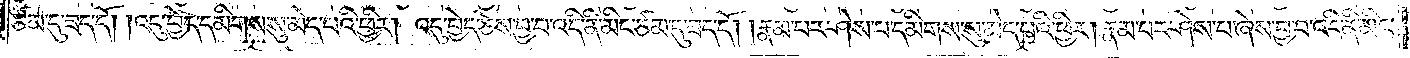ཙམ་དུ་ཟད་དོ། །འདུ་བྱེད་དམིགས་སུ་མེད་པའི་ཕྱིར། འདུ་བྱེད་ཅེས་བྱ་བ་འདི་ནི་མིང་ཙམ་དུ་ཟད་དོ། །རྣམ་པར་ཤེས་པ་དམིགས་སུ་མེད་པའི་ཕྱིར། རྣམ་པར་ཤེས་པ་ཞེས་བྱ་བ་འདི་ནི་མིང་
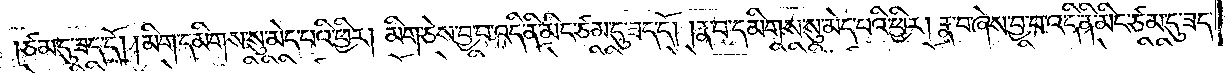ཙམ་དུ་ཟད་དོ། །མིག་དམིགས་སུ་མེད་པའི་ཕྱིར། མིག་ཅེས་བྱ་བ་འདི་ནི་མིང་ཙམ་དུ་ཟད་དོ། །རྣ་བ་དམིགས་སུ་མེད་པའི་ཕྱིར། རྣ་བ་ཞེས་བྱ་བ་འདི་ནི་མིང་ཙམ་དུ་ཟད་
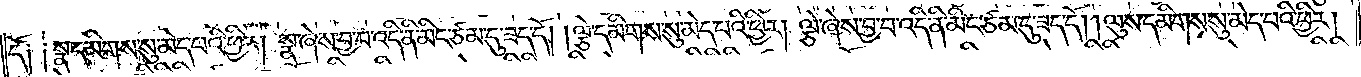དོ༑ ༑སྣ་དམིགས་སུ་མེད་པའི་ཕྱིར། སྣ་ཞེས་བྱ་བ་འདི་ནི་མིང་ཙམ་དུ་ཟད་དོ། །ལྕེ་དམིགས་སུ་མེད་པའི་ཕྱིར། ལྕེ་ཞེས་བྱ་བ་འདི་ནི་མིང་ཙམ་དུ་ཟད་དོ། །ལུས་དམིགས་སུ་མེད་པའི་ཕྱིར།
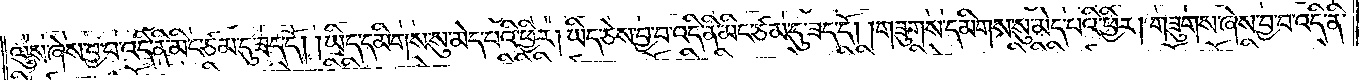ལུས་ཞེས་བྱ་བ་འདི་ནི་མིང་ཙམ་དུ་ཟད་དོ། །ཡིད་དམིགས་སུ་མེད་པའི་ཕྱིར། ཡིད་ཅེས་བྱ་བ་འདི་ནི་མིང་ཙམ་དུ་ཟད་དོ། །གཟུགས་དམིགས་སུ་མེད་པའི་ཕྱིར། གཟུགས་ཞེས་བྱ་བ་འདི་ནི་
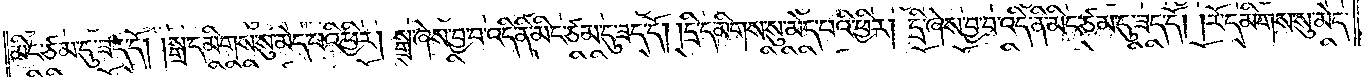མིང་ཙམ་དུ་ཟད་དོ། །སྒྲ་དམིགས་སུ་མེད་པའི་ཕྱིར། སྒྲ་ཞེས་བྱ་བ་འདི་ནི་མིང་ཙམ་དུ་ཟད་དོ། །དྲི་དམིགས་སུ་མེད་པའི་ཕྱིར། དྲི་ཞེས་བྱ་བ་འདི་ནི་མིང་ཙམ་དུ་ཟད་དོ། །རོ་དམིགས་སུ་མེད་
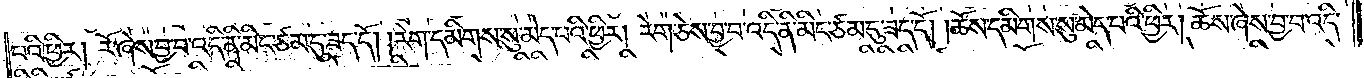པའི་ཕྱིར། རོ་ཞེས་བྱ་བ་འདི་ནི་མིང་ཙམ་དུ་ཟད་དོ། །རེག་དམིགས་སུ་མེད་པའི་ཕྱིར། རེག་ཅེས་བྱ་བ་འདི་ནི་མིང་ཙམ་དུ་ཟད་དོ། །ཆོས་དམིགས་སུ་མེད་པའི་ཕྱིར། ཆོས་ཞེས་བྱ་བ་འདི་
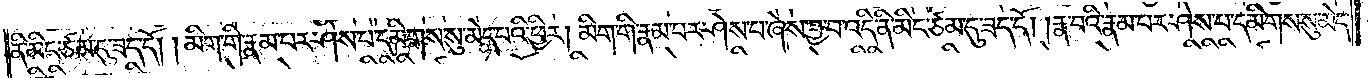ནི་མིང་ཙམ་དུ་ཟད་དོ། །མིག་གི་རྣམ་པར་ཤེས་པ་དམིགས་སུ་མེད་པའི་ཕྱིར། མིག་གི་རྣམ་པར་ཤེས་པ་ཞེས་བྱ་བ་འདི་ནི་མིང་ཙམ་དུ་ཟད་དོ། །རྣ་བའི་རྣམ་པར་ཤེས་པ་དམིགས་སུ་མེད་
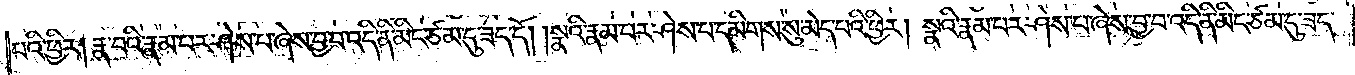པའི་ཕྱིར། རྣ་བའི་རྣམ་པར་ཤེས་པ་ཞེས་བྱ་བ་འདི་ནི་མིང་ཙམ་དུ་ཟད་དོ། །སྣའི་རྣམ་པར་ཤེས་པ་དམིགས་སུ་མེད་པའི་ཕྱིར། སྣའི་རྣམ་པར་ཤེས་པ་ཞེས་བྱ་བ་འདི་ནི་མིང་ཙམ་དུ་ཟད་
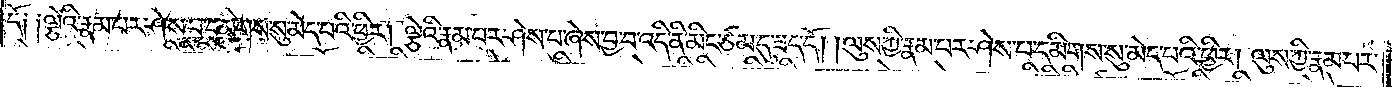དོ༑ ༑ལྕེའི་རྣམ་པར་ཤེས་པ་དམིགས་སུ་མེད་པའི་ཕྱིར། ལྕེའི་རྣམ་པར་ཤེས་པ་ཞེས་བྱ་བ་འདི་ནི་མིང་ཙམ་དུ་ཟད་དོ། །ལུས་ཀྱི་རྣམ་པར་ཤེས་པ་དམིགས་སུ་མེད་པའི་ཕྱིར། ལུས་ཀྱི་རྣམ་པར་
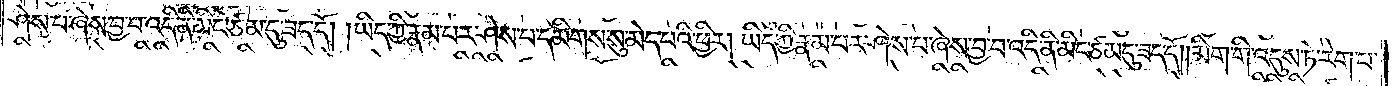ཤེས་པ་ཞེས་བྱ་བ་འདི་ནི་མིང་ཙམ་དུ་ཟད་དོ། །ཡིད་ཀྱི་རྣམ་པར་ཤེས་པ་དམིགས་སུ་མེད་པའི་ཕྱིར། ཡིད་ཀྱི་རྣམ་པར་ཤེས་པ་ཞེས་བྱ་བ་འདི་ནི་མིང་ཙམ་དུ་ཟད་དོ། །མིག་གི་འདུས་ཏེ་རེག་པ་
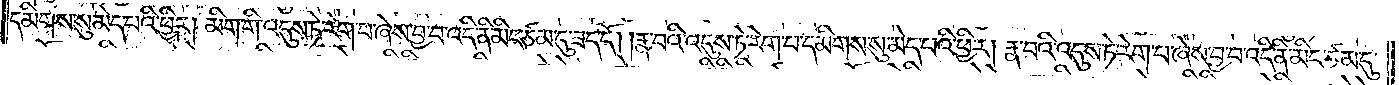དམིགས་སུ་མེད་པའི་ཕྱིར། མིག་གི་འདུས་ཏེ་རེག་པ་ཞེས་བྱ་བ་འདི་ནི་མིང་ཙམ་དུ་ཟད་དོ། །རྣ་བའི་འདུས་ཏེ་རེག་པ་དམིགས་སུ་མེད་པའི་ཕྱིར། རྣ་བའི་འདུས་ཏེ་རེག་པ་ཞེས་བྱ་བ་འདི་ནི་མིང་ཙམ་དུ་
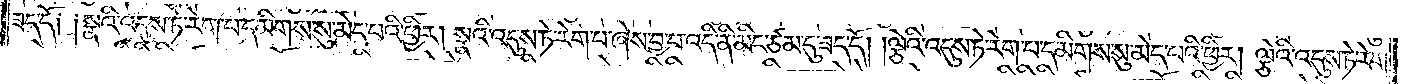ཟད་དོ༑ ༑སྣའི་འདུས་ཏེ་རེག་པ་དམིགས་སུ་མེད་པའི་ཕྱིར། སྣའི་འདུས་ཏེ་རེག་པ་ཞེས་བྱ་བ་འདི་ནི་མིང་ཙམ་དུ་ཟད་དོ། །ལྕེའི་འདུས་ཏེ་རེག་པ་དམིགས་སུ་མེད་པའི་ཕྱིར། ལྕེའི་འདུས་ཏེ་རེག་
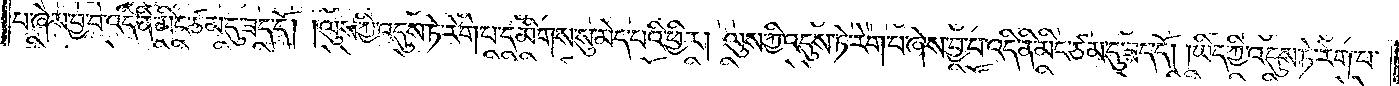པ་ཞེས་བྱ་བ་འདི་ནི་མིང་ཙམ་དུ་ཟད་དོ། །ལུས་ཀྱི་འདུས་ཏེ་རེག་པ་དམིགས་སུ་མེད་པའི་ཕྱིར། ལུས་ཀྱི་འདུས་ཏེ་རེག་པ་ཞེས་བྱ་བ་འདི་ནི་མིང་ཙམ་དུ་ཟད་དོ། །ཡིད་ཀྱི་འདུས་ཏེ་རེག་པ་
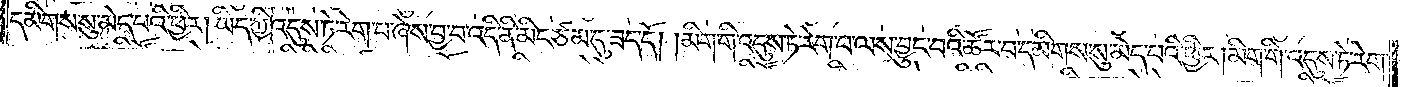དམིགས་སུ་མེད་པའི་ཕྱིར། ཡིད་ཀྱི་འདུས་ཏེ་རེག་པ་ཞེས་བྱ་བ་འདི་ནི་མིང་ཙམ་དུ་ཟད་དོ། །མིག་གི་འདུས་ཏེ་རེག་པ་ལས་བྱུང་བའི་ཚོར་བ་དམིགས་སུ་མེད་པའི་ཕྱིར། མིག་གི་འདུས་ཏེ་རེག་
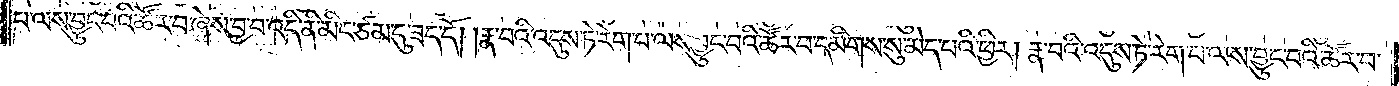པ་ལས་བྱུང་བའི་ཚོར་བ་ཞེས་བྱ་བ་འདི་ནི་མིང་ཙམ་དུ་ཟད་དོ། །རྣ་བའི་འདུས་ཏེ་རེག་པ་ལས་བྱུང་བའི་ཚོར་བ་དམིགས་སུ་མེད་པའི་ཕྱིར། རྣ་བའི་འདུས་ཏེ་རེག་པ་ལས་བྱུང་བའི་ཚོར་བ་
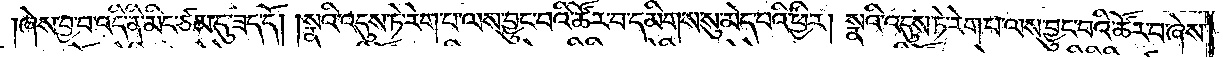ཞེས་བྱ་བ་འདི་ནི་མིང་ཙམ་དུ་ཟད་དོ། །སྣའི་འདུས་ཏེ་རེག་པ་ལས་བྱུང་བའི་ཚོར་བ་དམིགས་སུ་མེད་པའི་ཕྱིར། སྣའི་འདུས་ཏེ་རེག་པ་ལས་བྱུང་བའི་ཚོར་བ་ཞེས་
